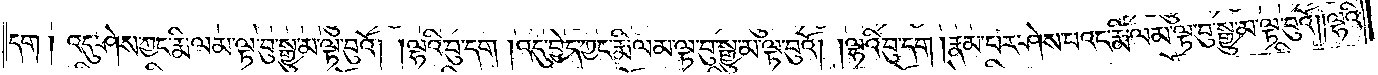དག ༏འདུ་ཤེས་ཀྱང་རྨི་ལམ་ལྟ་བུ་སྒྱུ་མ་ལྟ་བུའོ། །ལྷའི་བུ་དག །འདུ་བྱེད་ཀྱང་རྨི་ལམ་ལྟ་བུ་སྒྱུ་མ་ལྟ་བུའོ། །ལྷའི་བུ་དག །རྣམ་པར་ཤེས་པའང་རྨི་ལམ་ལྟ་བུ་སྒྱུ་མ་ལྟ་བུའོ། །ལྷའི་
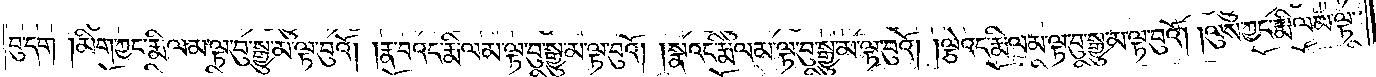བུ་དག །མིག་ཀྱང་རྨི་ལམ་ལྟ་བུ་སྒྱུ་མ་ལྟ་བུའོ། །རྣ་བའང་རྨི་ལམ་ལྟ་བུ་སྒྱུ་མ་ལྟ་བུའོ། །སྣའང་རྨི་ལམ་ལྟ་བུ་སྒྱུ་མ་ལྟ་བུའོ། །ལྕེའང་རྨི་ལམ་ལྟ་བུ་སྒྱུ་མ་ལྟ་བུའོ། །ལུས་ཀྱང་རྨི་ལམ་ལྟ་
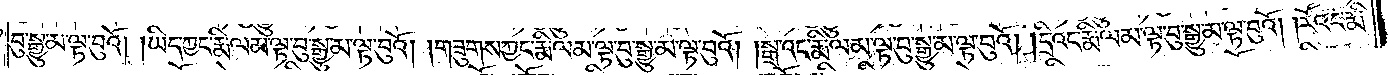བུ་སྒྱུ་མ་ལྟ་བུའོ། །ཡིད་ཀྱང་རྨི་ལམ་ལྟ་བུ་སྒྱུ་མ་ལྟ་བུའོ། །གཟུགས་ཀྱང་རྨི་ལམ་ལྟ་བུ་སྒྱུ་མ་ལྟ་བུའོ། །སྒྲའང་རྨི་ལམ་ལྟ་བུ་སྒྱུ་མ་ལྟ་བུའོ། །དྲིའང་རྨི་ལམ་ལྟ་བུ་སྒྱུ་མ་ལྟ་བུའོ། །རོའང་རྨི་
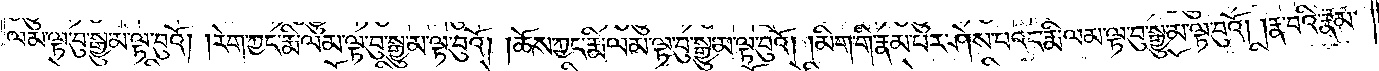ལམ་ལྟ་བུ་སྒྱུ་མ་ལྟ་བུའོ། །རེག་ཀྱང་རྨི་ལམ་ལྟ་བུ་སྒྱུ་མ་ལྟ་བུའོ། །ཆོས་ཀྱང་རྨི་ལམ་ལྟ་བུ་སྒྱུ་མ་ལྟ་བུའོ། །མིག་གི་རྣམ་པར་ཤེས་པའང་རྨི་ལམ་ལྟ་བུ་སྒྱུ་མ་ལྟ་བུའོ། །རྣ་བའི་རྣམ་
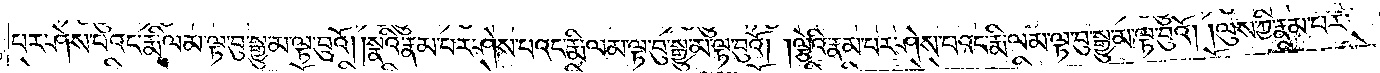པར་ཤེས་པའང་རྨི་ལམ་ལྟ་བུ་སྒྱུ་མ་ལྟ་བུའོ། །སྣའི་རྣམ་པར་ཤེས་པའང་རྨི་ལམ་ལྟ་བུ་སྒྱུ་མ་ལྟ་བུའོ། །ལྕེའི་རྣམ་པར་ཤེས་པའང་རྨི་ལམ་ལྟ་བུ་སྒྱུ་མ་ལྟ་བུའོ། །ལུས་ཀྱི་རྣམ་པར་
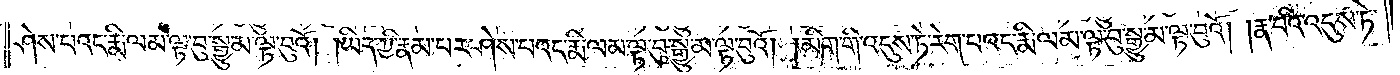ཤེས་པའང་རྨི་ལམ་ལྟ་བུ་སྒྱུ་མ་ལྟ་བུའོ། །ཡིད་ཀྱི་རྣམ་པར་ཤེས་པའང་རྨི་ལམ་ལྟ་བུ་སྒྱུ་མ་ལྟ་བུའོ། །མིག་གི་འདུས་ཏེ་རེག་པའང་རྨི་ལམ་ལྟ་བུ་སྒྱུ་མ་ལྟ་བུའོ། །རྣ་བའི་འདུས་ཏེ་
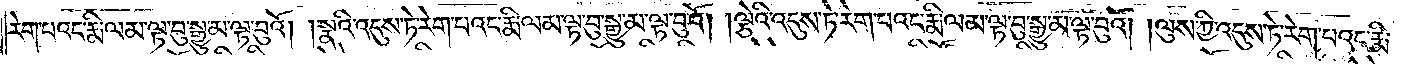རེག་པའང་རྨི་ལམ་ལྟ་བུ་སྒྱུ་མ་ལྟ་བུའོ། །སྣའི་འདུས་ཏེ་རེག་པའང་རྨི་ལམ་ལྟ་བུ་སྒྱུ་མ་ལྟ་བུའོ། །ལྕེའི་འདུས་ཏེ་རེག་པའང་རྨི་ལམ་ལྟ་བུ་སྒྱུ་མ་ལྟ་བུའོ། །ལུས་ཀྱི་འདུས་ཏེ་རེག་པའང་རྨི་
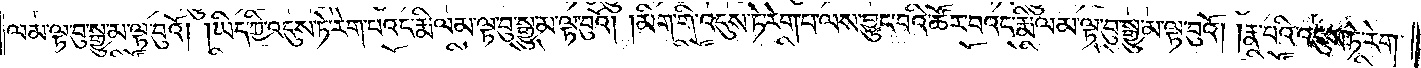ལམ་ལྟ་བུ་སྒྱུ་མ་ལྟ་བུའོ། །ཡིད་ཀྱི་འདུས་ཏེ་རེག་པའང་རྨི་ལམ་ལྟ་བུ་སྒྱུ་མ་ལྟ་བུའོ། །མིག་གི་འདུས་ཏེ་རེག་པ་ལས་བྱུང་བའི་ཚོར་བའང་རྨི་ལམ་ལྟ་བུ་སྒྱུ་མ་ལྟ་བུའོ། །རྣ་བའི་འདུས་ཏེ་རེག་
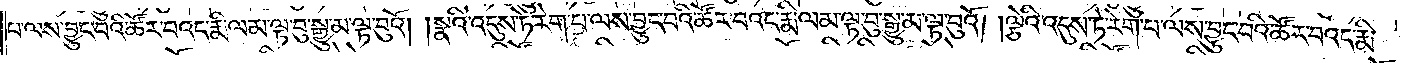པ་ལས་བྱུང་བའི་ཚོར་བའང་རྨི་ལམ་ལྟ་བུ་སྒྱུ་མ་ལྟ་བུའོ། །སྣའི་འདུས་ཏེ་རེག་པ་ལས་བྱུང་བའི་ཚོར་བའང་རྨི་ལམ་ལྟ་བུ་སྒྱུ་མ་ལྟ་བུའོ། །ལྕེའི་འདུས་ཏེ་རེག་པ་ལས་བྱུང་བའི་ཚོར་བའང་རྨི་
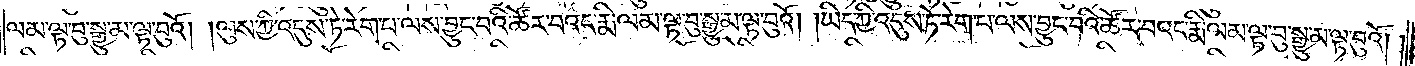ལམ་ལྟ་བུ་སྒྱུ་མ་ལྟ་བུའོ། །ལུས་ཀྱི་འདུས་ཏེ་རེག་པ་ལས་བྱུང་བའི་ཚོར་བའང་རྨི་ལམ་ལྟ་བུ་སྒྱུ་མ་ལྟ་བུའོ། །ཡིད་ཀྱི་འདུས་ཏེ་རེག་པ་ལས་བྱུང་བའི་ཚོར་བའང་རྨི་ལམ་ལྟ་བུ་སྒྱུ་མ་ལྟ་བུའོ། །
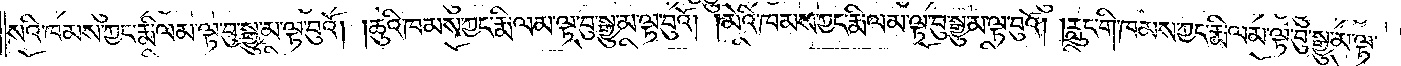སའི་ཁམས་ཀྱང་རྨི་ལམ་ལྟ་བུ་སྒྱུ་མ་ལྟ་བུའོ། །ཆུའི་ཁམས་ཀྱང་རྨི་ལམ་ལྟ་བུ་སྒྱུ་མ་ལྟ་བུའོ། །མེའི་ཁམས་ཀྱང་རྨི་ལམ་ལྟ་བུ་སྒྱུ་མ་ལྟ་བུའོ། །རླུང་གི་ཁམས་ཀྱང་རྨི་ལམ་ལྟ་བུ་སྒྱུ་མ་ལྟ་
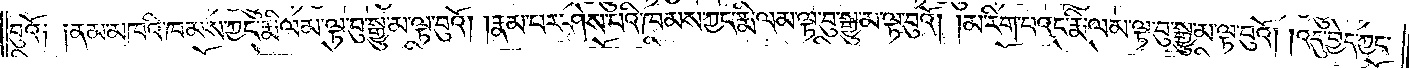བུའོ༏ ༏ནམ་མཁའི་ཁམས་ཀྱང་རྨི་ལམ་ལྟ་བུ་སྒྱུ་མ་ལྟ་བུའོ། །རྣམ་པར་ཤེས་པའི་ཁམས་ཀྱང་རྨི་ལམ་ལྟ་བུ་སྒྱུ་མ་ལྟ་བུའོ། །མ་རིག་པའང་རྨི་ལམ་ལྟ་བུ་སྒྱུ་མ་ལྟ་བུའོ། །འདུ་བྱེད་ཀྱང་
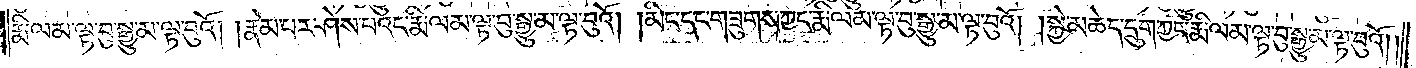རྨི་ལམ་ལྟ་བུ་སྒྱུ་མ་ལྟ་བུའོ། །རྣམ་པར་ཤེས་པའང་རྨི་ལམ་ལྟ་བུ་སྒྱུ་མ་ལྟ་བུའོ། མིང་དང་གཟུགས་ཀྱང་རྨི་ལམ་ལྟ་བུ་སྒྱུ་མ་ལྟ་བུའོ། །སྐྱེ་མཆེད་དྲུག་ཀྱང་རྨི་ལམ་ལྟ་བུ་སྒྱུ་མ་ལྟ་བུའོ། །
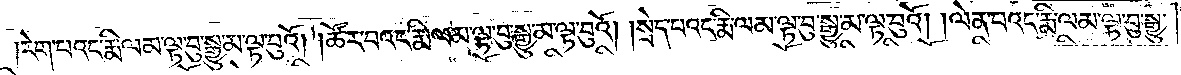རེག་པའང་རྨི་ལམ་ལྟ་བུ་སྒྱུ་མ་ལྟ་བུའོ། །ཚོར་བའང་རྨི་ལམ་ལྟ་བུ་སྒྱུ་མ་ལྟ་བུའོ། །སྲེད་པའང་རྨི་ལམ་ལྟ་བུ་སྒྱུ་མ་ལྟ་བུའོ། །ལེན་པའང་རྨི་ལམ་ལྟ་བུ་སྒྱུ་
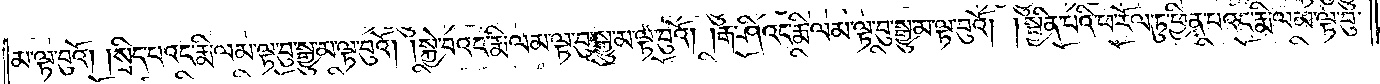མ་ལྟ་བུའོ། །སྲིད་པའང་རྨི་ལམ་ལྟ་བུ་སྒྱུ་མ་ལྟ་བུའོ། །སྐྱེ་བའང་རྨི་ལམ་ལྟ་བུ་སྒྱུ་མ་ལྟ་བུའོ། །རྒ་ཤིའང་རྨི་ལམ་ལྟ་བུ་སྒྱུ་མ་ལྟ་བུའོ། །སྦྱིན་པའི་ཕ་རོལ་ཏུ་ཕྱིན་པའང་རྨི་ལམ་ལྟ་བུ་
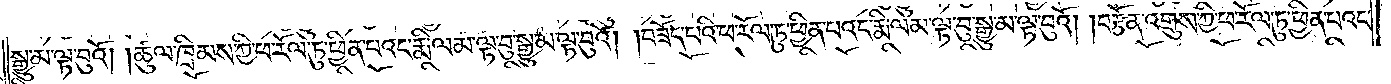སྒྱུ་མ་ལྟ་བུའོ། །ཚུལ་ཁྲིམས་ཀྱི་ཕ་རོལ་ཏུ་ཕྱིན་པའང་རྨི་ལམ་ལྟ་བུ་སྒྱུ་མ་ལྟ་བུའོ། །བཟོད་པའི་ཕ་རོལ་ཏུ་ཕྱིན་པའང་རྨི་ལམ་ལྟ་བུ་སྒྱུ་མ་ལྟ་བུའོ། །བརྩོན་འགྲུས་ཀྱི་ཕ་རོལ་ཏུ་ཕྱིན་པའང་
